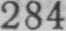284
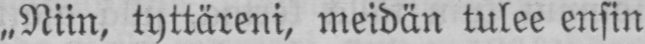„Niin, tyttäreni, meidän tulee ensin
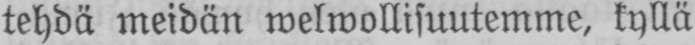tehdä meidän welwollisuutemme, kyllä
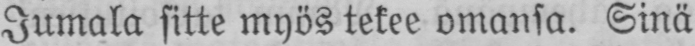Jumala sitte myös tekee omansa. Sinä
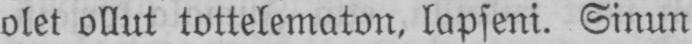olet ollut tottelematon, lapseni. Sinun
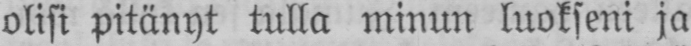olisi pitänyt tulla minun luokseni ja
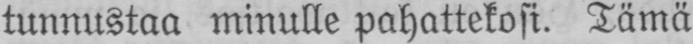tunnustaa minulle pahattekosi. Tämä
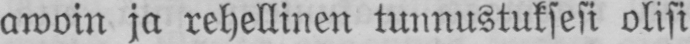awoin ja rehellinen tunnustuksesi olisi
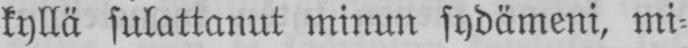kyllä sulattanut minun sydämeni, mi-
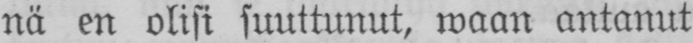nä en olisi suuttunut, waan antanut
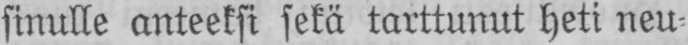sinulle anteeksi sekä tarttunut heti neu-
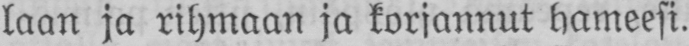laan ja rihmaan ja korjannut hameesi.
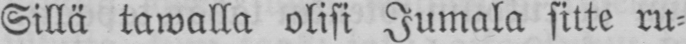Sillä tawalla olisi Jumala sitte ru-
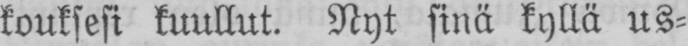kouksesi kuullut. Nyt sinä kyllä us-
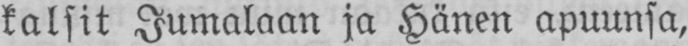kalsit Jumalaan ja Hänen apuunsa,
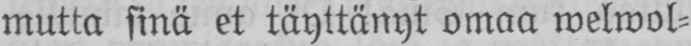mutta sinä et täyttänyt omaa welwol-
